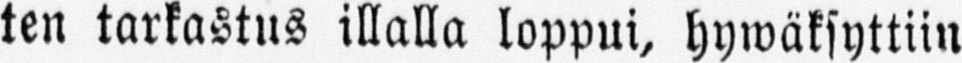ten tarkastus illalla loppui, hywäksyttiin
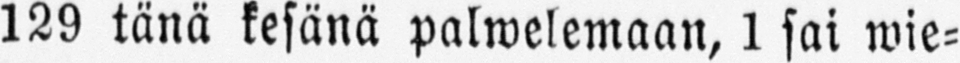129 tänä kesänä palwelemaan, 1 sai wie-
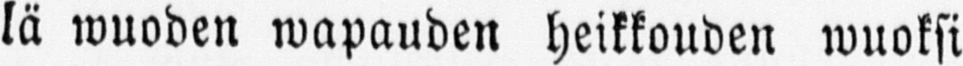lä wuoden wapauden heikkouden wuoksi
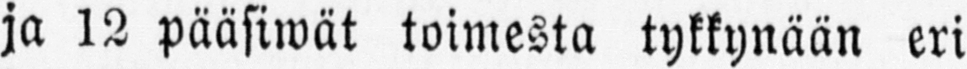ja 12 pääsiwät toimesta tykkynään eri
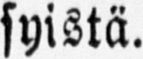syistä.
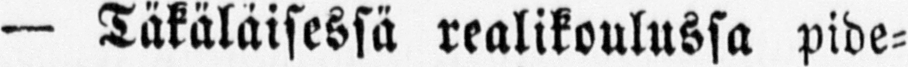— Täkäläisessä realikoulussa pide-
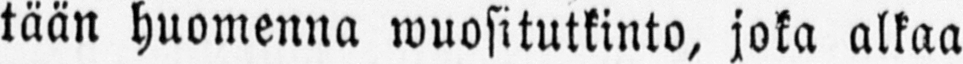tään huomenna wuositutkinto, joka alkaa
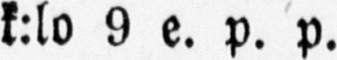k:lo 9 e. p. p.
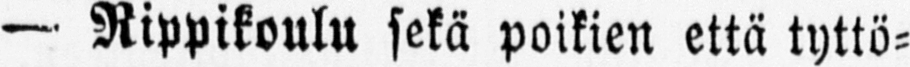— Rippikoulu sekä poikien että tyttö-
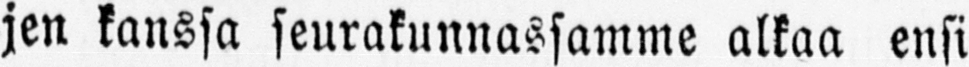jen kanssa seurakunnassamme alkaa ensi
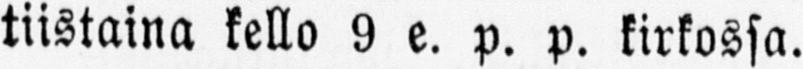tiistaina kello 9 e. p. p. kirkossa.
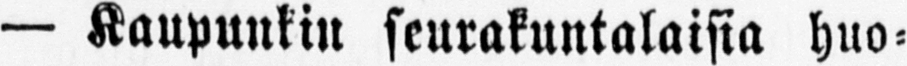— Kaupunkin seurakuntalaisia huo-
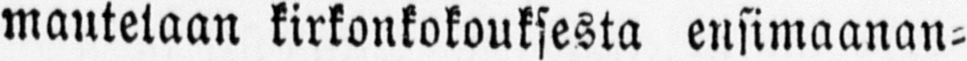mautetaan kirkonkokouksesta ensimaanan-
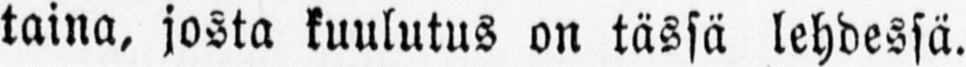taina, josta kuulutus on tässä lehdessä.
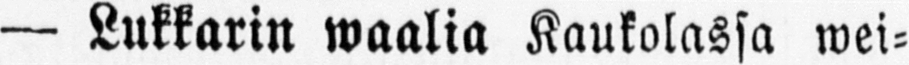— Lukkarin waalia Kaukolassa wei-
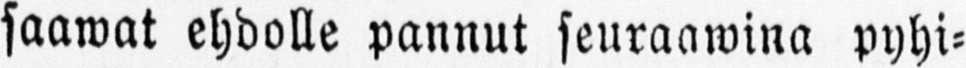saawat ehdolle pannut seuraawina pyhi-
